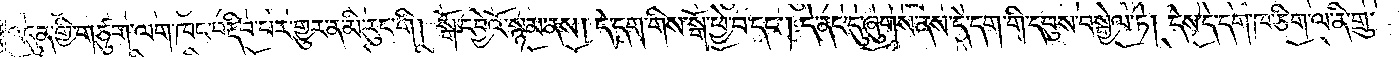འདུན་གྱི་གཙུག་ལག་ཁང་བརྡིབ་པར་གྱུར་ན་མི་རུང་གི །སྒོ་དབྱེའོ་སྙམ་ནས། དེ་དག་གིས་སྒོ་ཕྱེ་བ་དང༌། དེ་ནང་དུ་ཞུགས་ནས་དེ་དག་གི་དབུས་བསྒྱེལ་ཏེ། དེས་དེ་དག་ཁ་ཅིག་ལ་ནི་གྲུ་
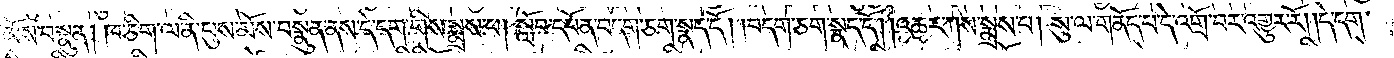མོས་བསྣུན། ཁ་ཅིག་ལ་ནི་པུས་མོས་བསྣུན་ནས་དེ་དག་གིས་སྨྲས་པ། སློབ་དཔོན་བདག་ཅག་སྣད་དོ། །བདག་ཅག་སྣད་དོ། །འཆར་ཀས་སྨྲས་པ། སུ་ལ་གནོད་པ་དེ་འགྲོ་བར་འགྱུར་རོ། །དེ་དག་
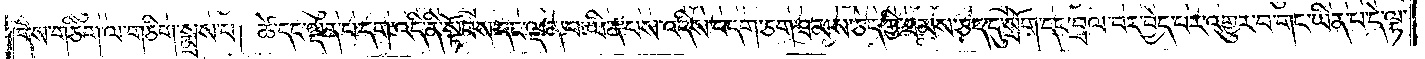གིས་གཅིག་ལ་གཅིག་སྨྲས་པ། ཚེ་དང་ལྡན་པ་དག་འདི་ནི་སྟོབས་དང་ལྡན་པ་ཡིན་པས་འདིས་བདག་ཅག་ཐམས་ཅད་ཀྱི་ཐམས་ཅད་དུ་སྲོག་དང་བྲལ་བར་བྱེད་པར་འགྱུར་བ་གང་ཡིན་པ་དེ་ལྟ་
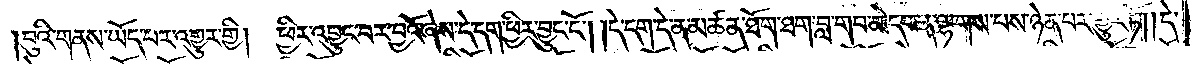བུའི་གནས་ཡོད་པར་འགྱུར་གྱི། ཕྱིར་འབྱུང་བར་བྱའོ་ཞེས་དེ་དག་ཕྱིར་བྱུང་ངོ༌། །དེ་དག་དེ་ན་མཚན་ཐོག་ཐག་བླ་གབ་མེད་པ་ན་ལྷགས་པས་ཉེན་པར་གྱུར་ཏོ་།དེ་
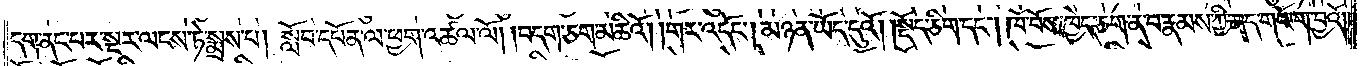དག་ནང་པར་སྔར་ལངས་ཏེ་སྨྲས་པ། སློབ་དཔོན་ལ་ཕྱག་འཚལ་ལོ། །བདག་ཅག་མཆིའོ། །གར་འདོང༌། མཉན་ཡོད་དུའོ། །སྡོད་ཅིག་དང༌། ཁོ་བོས་ཁྱེད་ཅག་ན་བ་རྣམས་ཀྱི་ནད་གཡོག་བྱའོ། །
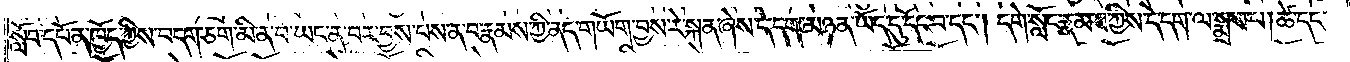སློབ་དཔོན་ཁྱོད་ཀྱིས་བདག་ཅག་མི་ན་བ་ཡང་ན་བར་བྱས་པས་ན་བ་རྣམས་ཀྱི་ནད་གཡོག་བྱས་རེ་སྐན་ཞེས་དེ་དག་མཉན་ཡོད་དུ་དོང་བ་དང༌། དགེ་སློང་རྣམས་ཀྱིས་དེ་དག་ལ་སྨྲས་པ། ཚེ་དང་
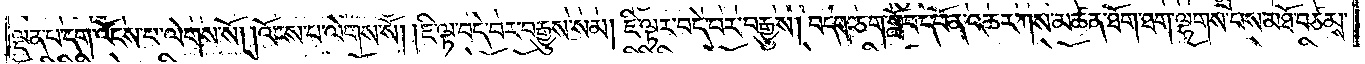ལྡན་པ་དག་འོངས་པ་ལེགས་སོ། །འོངས་པ་ལེགས་སོ། །ཇི་ལྟ་བདེ་བར་བརྒྱུས་སམ། ཇི་ལྟར་བདེ་བར་བརྒྱུས། བདག་ཅག་སློབ་དཔོན་འཆར་ཀས་མཚན་ཐོག་ཐག་ལྷགས་པས་མཐོ་བཙམས་
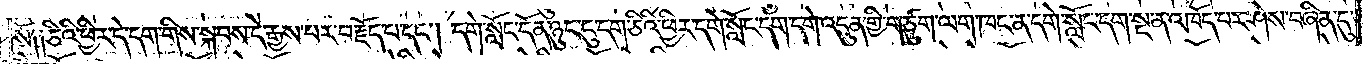སོ༑ ༑ཅིའི་ཕྱིར་དེ་དག་གིས་སྐབས་དེ་རྒྱས་པར་བརྗོད་པ་དང༌། དགེ་སློང་དོན་ཉུང་ངུ་དག་ཅིའི་ཕྱིར་དགེ་སློང་དག་དགེ་འདུན་གྱི་གཙུག་ལག་ཁང་ན་དགེ་སློང་དག་སྔ་ན་འཁོད་པར་ཤེས་བཞིན་དུ་
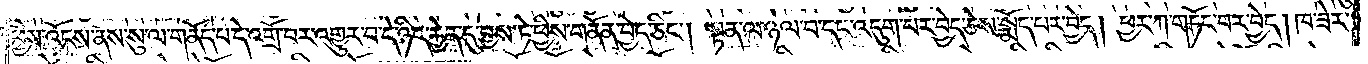ཕྱིས་འོངས་ནས་སུ་ལ་གནོད་པ་དེ་འགྲོ་བར་འགྱུར་བ་དེ་ཉིད་རྐྱེན་དུ་བྱས་ཏེ་ཕྱིས་གནོན་བྱེད་ཅིང༌། སྟན་ལ་ཉལ་བ་དང་འདུག་པར་བྱེད་ཅེས་སྨོད་པར་བྱེད། ཕྱར་ཀ་གཏོང་བར་བྱད། ཁ་ཟེར་
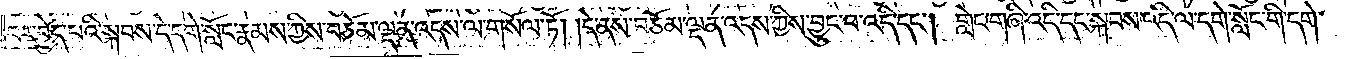བར་བྱེད་པའི་སྐབས་དེ་དགེ་སློང་རྣམས་ཀྱིས་བཅོམ་ལྡན་འདས་ལ་གསོལ་ཏོ། །དེ་ནས་བཅོམ་ལྡན་འདས་ཀྱིས་བྱུང་བ་འདི་དང༌། གླེང་གཞི་འདི་དང་སྐབས་འདི་ལ་དགེ་སློང་གི་དགེ་
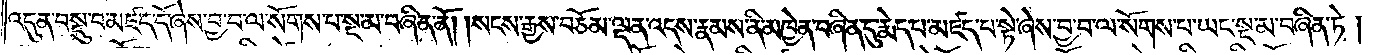འདུན་བསྡུ་བ་མཛད་དོ་ཞེས་བྱ་བ་ལ་སོགས་པ་སྔ་མ་བཞིན་ནོ། །སངས་རྒྱས་བཅོམ་ལྡན་འདས་རྣམས་ནི་མཁྱེན་བཞིན་དུ་རྨེད་པ་མཛད་པ་སྟེ་ཞེས་བྱ་བ་ལ་སོགས་པ་ཡང་སྔ་མ་བཞིན་ཏེ།
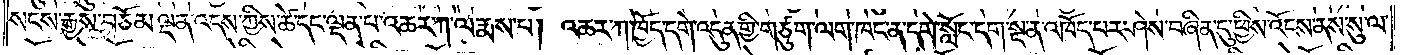སངས་རྒྱས་བཅོམ་ལྡན་འདས་ཀྱིས་ཚེ་དང་ལྡན་པ་འཆར་ཀ་ལ་རྨས་པ། འཆར་ཀ་ཁྱོད་དགེ་འདུན་གྱི་གཙུག་ལག་ཁང་ན་དགེ་སློང་དག་སྔ་ན་འཁོད་པར་ཤེས་བཞིན་དུ་ཕྱིས་འོངས་ནས་སུ་ལ་
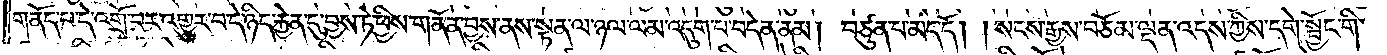གནོད་པ་དེ་འགྲོ་བར་འགྱུར་བ་དེ་ཉིད་རྐྱེན་དུ་བྱས་ཏེ་ཕྱིས་གནོན་བྱས་ནས་སྟན་ལ་ཉལ་ལམ་འདུག་པ་བདེན་ནམ། བཙུན་པ་མད་དོ། །སངས་རྒྱས་བཅོམ་ལྡན་འདས་ཀྱིས་དགེ་སྦྱོང་གི་
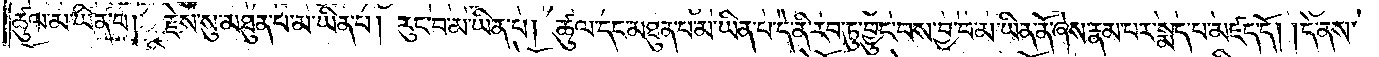ཚུལ་མ་ཡིན་པ། རྗེས་སུ་མཐུན་པ་མ་ཡིན་པ། རུང་བ་མ་ཡིན་པ། ཚུལ་དང་མཐུན་པ་མ་ཡིན་པ་དེ་ནི་རབ་ཏུ་བྱུང་བས་བྱ་བ་མ་ཡིན་ནོ་ཞེས་རྣམ་པར་སྨད་པ་མཛད་དོ། །དེ་ནས་
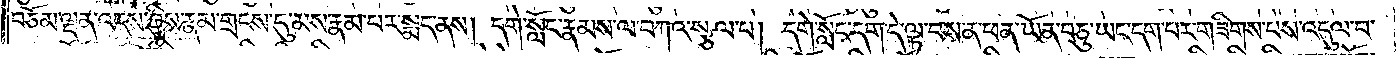བཅོམ་ལྡན་འདས་ཀྱིས་རྣམ་གྲངས་དུ་མས་རྣམ་པར་སྨད་ནས། དགེ་སློང་རྣམས་ལ་བཀའ་སྩལ་པ། དགེ་སློང་དག་དེ་ལྟ་བས་ན་ཕན་ཡོན་བཅུ་ཡང་དག་པར་གཟིགས་པས་འདུལ་བ་
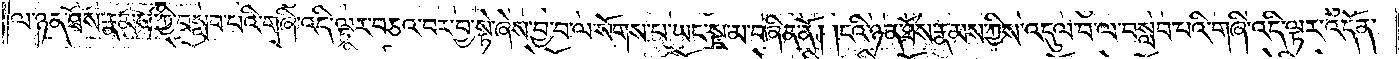ལ་ཉན་ཐོས་རྣམས་ཀྱི་བསླབ་པའི་གཞི་འདི་ལྟར་བཅའ་བར་བྱ་སྟེ་ཞེས་བྱ་བ་ལ་སོགས་པ་ཡང་སྔ་མ་བཞིན་ནོ། །ངའི་ཉན་ཐོས་རྣམས་ཀྱིས་འདུལ་བ་ལ་བསླབ་པའི་གཞི་འདི་ལྟར་འདོན་
